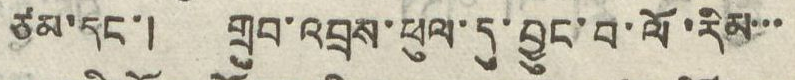ཙམ་དང་། གྲུབ་འབྲས་ཕུལ་དུ་བྱུང་བ་ལོ་རིམ་་་
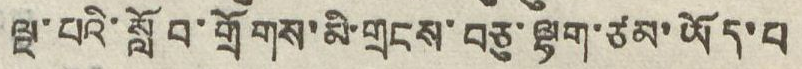ལྔ་པའི་སློབ་གྲོགས་མི་གྲངས་བཅུ་ལྷག་ཙམ་ཡོད་པ
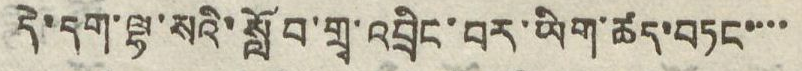དེ་དག་ལྷ་སའི་སློབ་གྲྭ་འབྲིང་བར་ཡིག་ཚད་བཏང་་་་
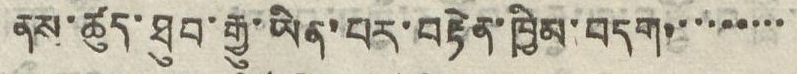ནས་ཚུད་ཐུབ་རྒྱུ་ཡིན་པར་བརྟེན་ཁྱིམ་བདག་་་་་་་་་
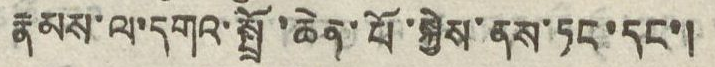རྣམས་ལ་དགའ་སྤྲོ་ཆེན་པོ་སྐྱེས་ནས་ཏང་དང་།
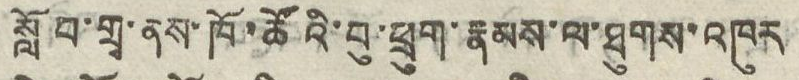སློབ་གྲྭ་ནས་ཁོ་ཚོའི་བུ་ཕྲུག་རྣམས་ལ་ཐུགས་འཁུར
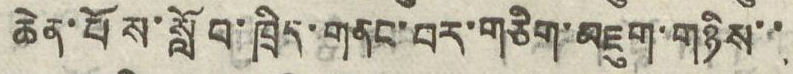ཆེན་པོ་སློབ་ཁྲིད་གནང་བར་གཅིག་མཇུག་གཉིས་་
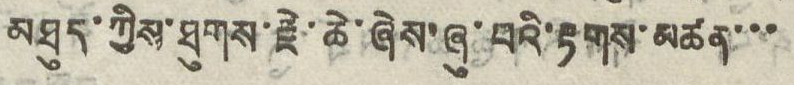མཐུད་ཀྱིས་ཐུགས་རྗེ་ཆེ་ཞེས་ཞུ་པའི་རྟགས་མཚན་་་
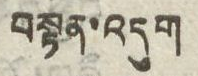བསྟན་འདུག
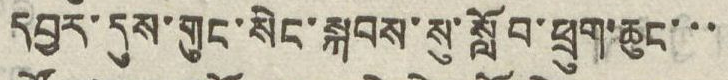དབྱར་དུས་གུང་སེང་སྐབས་སུ་སློབ་ཕྲུག་ཆུང་་་
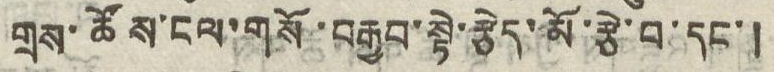གྲས་ཚོས་ངལ་གསོ་བརྒྱབ་སྟེ་རྩེད་མོ་རྩེ་བ་དང་།
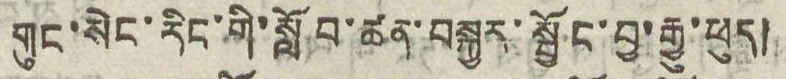གུང་སེང་རིང་གི་སློབ་ཚན་བསྐྱར་སྦྱོང་བྱ་རྒྱུ་ཕུད།
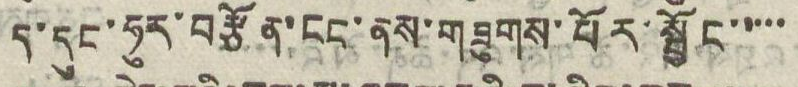ད་དུང་ཧུར་བརྩོན་ངང་ནས་གཟུགས་པོར་སྦྱོང་་་་་
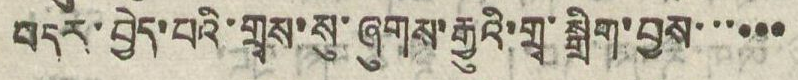བདར་བྱེད་པའི་གྲས་སུ་ཞུགས་རྒྱུའི་གྲྭ་སྒྲིག་བྱས་་་་་་
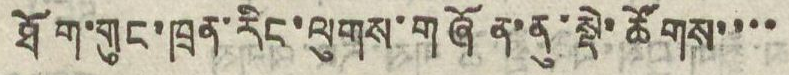ཐོག་གུང་ཁྲན་རིང་ལུགས་གཞོན་ནུ་སྡེ་ཚོགས་་་་
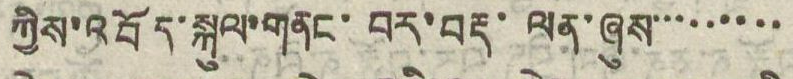ཀྱིས་འབོད་སྐུལ་གནང་བར་བརྡ་ལན་ཞུས་་་་་་་་་
